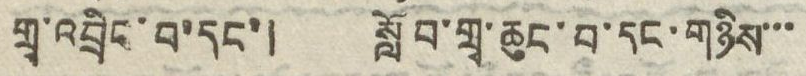གྲྭ་འབྲིང་བ་དང་། སློབ་གྲྭ་ཆུང་བ་དང་གཉིས་་་
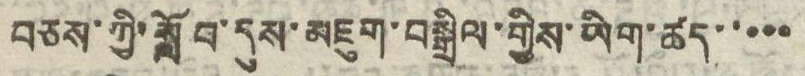བཅས་ཀྱི་སློབ་དུས་མཇུག་བསྒྲིལ་གྱིས་ཡིག་ཚད་་་་་
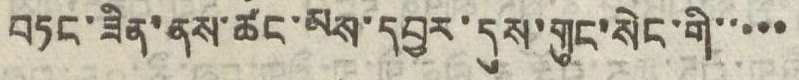བཏང་ཙིན་ནས་ཚང་མས་དབྱར་དུས་གུང་སེང་གི་་་་་
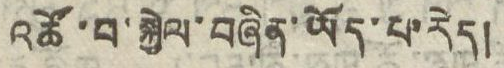འཚོ་བ་སྐྱེལ་བཞིན་ཡོད་པ་རེད།
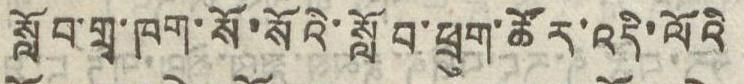སློབ་གྲྭ་ཁག་སོ་སོའི་སློབ་ཕྲུག་ཚོར་འདི་ལོའི
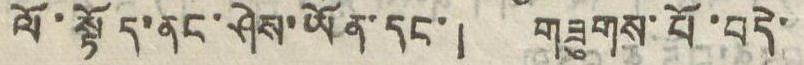ལོ་སྟོད་ནང་ཤེས་ཡོན་དང་། གཟུགས་པོ་བདེ་
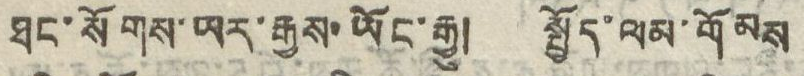ཐང་སོགས་ཡར་རྒྱས་ཡོང་རྒྱུ། སྤྱོད་ལམ་གོམས
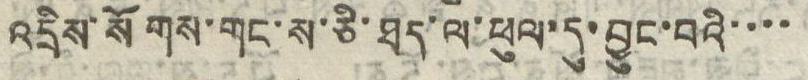འདྲིས་སོགས་གང་ས་ཅི་ཐད་ལ་ཕུལ་དུ་བྱུང་བའི་་་་
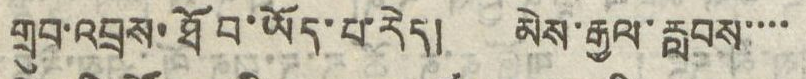གྲུབ་འབྲས་ཐོབ་ཡོད་པ་རེད། མེས་རྒྱལ་རླབས་་་་
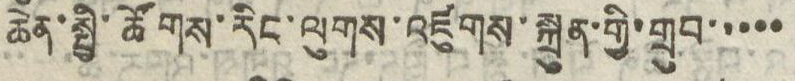ཆེན་སྤྱི་ཚོགས་རིང་ལུགས་འཛུགས་སྐྲུན་གྱི་གྲུབ་་་་་
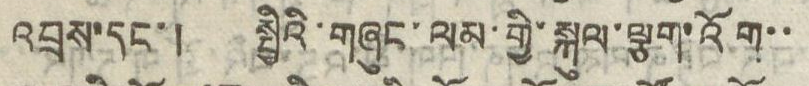འབྲས་དང་། སྤྱིའི་གཞུང་ལམ་གྱི་སྐུལ་ལྕག་འོག་་
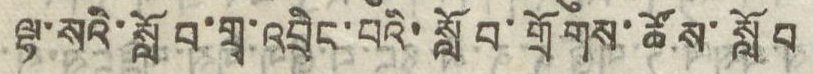ལྷ་སའི་སློབ་གྲྭ་འབྲིང་བའི་སློབ་གྲོགས་ཚོས་སློབ
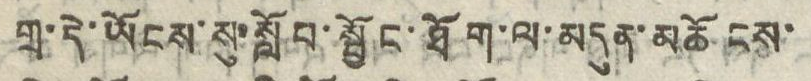གྲྭ་དེ་ཡོངས་སུ་སློབ་སྦྱོང་ཐོག་ལ་མདུན་མཆོངས་
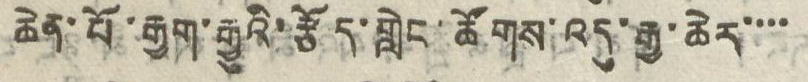ཆེན་པོ་རྒྱག་རྒྱུའི་རྩོད་གླེང་ཚོགས་འདུ་རྒྱ་ཆེར་་་་
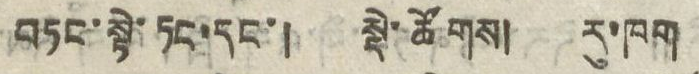བཏང་སྟེ་ཏང་དང་། སྡེ་ཚོགས། རུ་ཁག
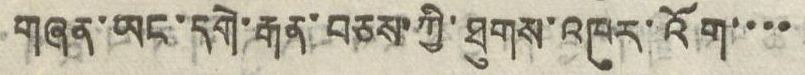གཞན་ཡང་དགེ་རྒན་བཅས་ཀྱི་ཐུགས་འཁུར་འོག་་་་
